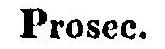Prosec.
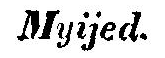Myijed.
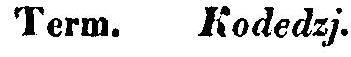Term. Kodedzj.
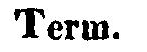Term.
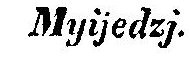Myijedzj.
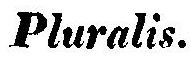Pluralis.
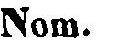Nom.
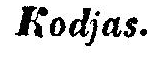Kodjas.
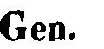Gen.
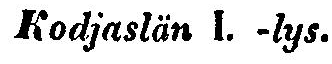Kodjaslän l. -lys.
